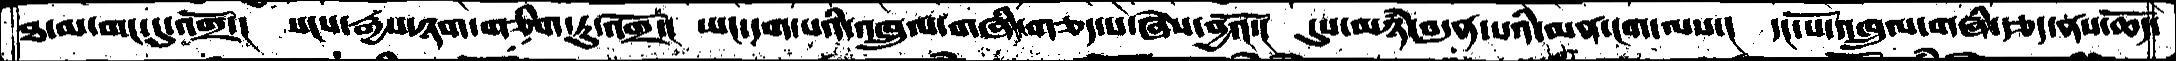ཐ་མ་གང་དུ་འགྲོ་།  སངས་རྒྱས་ཉག་གཅིག་ཏུ་འགྲོ་།  ཡང་དག་པའི་འཁྲུལ་གཞི་གཅད་པ་ཞེས་བྱའོ་།  དུས་མཉཾ་བདུན་པའི་མན་ངག་ལས་།   དང་པོ་འཁྲུལ་གཞི་རྩད་ནས་ཆོད་
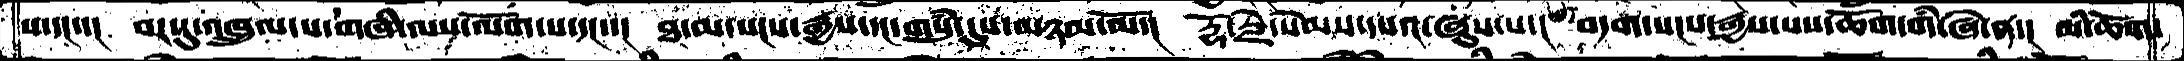པ་དང་་།  བར་དུ་འཁྲུལ་པ་གཞི་ལས་ལོག་པ་དང་་།  ཐ་མ་སངས་རྒྱས་དང་གསུཾ་དུས་མཉམ་མོ་།  རྡོ་རྗེ་སེམས་དཔའ་ཞུས་པ་།  བདག་སངས་རྒྱས་པས་ཆོག་གི་ཞེ་ན་།  མི་ཆོག་
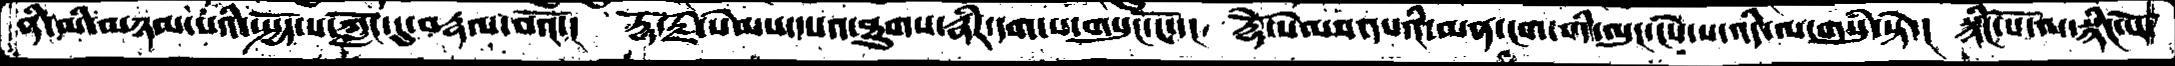ནི་མི་མཉམ་པའི་སྤྱོད་པ་ཀློང་དུ་བརྡལ་བའོ་།  རྡོ་རྗེ་སེམས་དཔའ་ཐུགས་རྣཾར་དག་པ་གསུང་ངོ་་།  རྡོེ་སེམས་དཔའི་མན་ངག་གི་ལུང་ངེས་པ་འདི་ལ་གསུཾ་སྟེ་།  སྙིང་པོ་ལསྙིང་པོ་
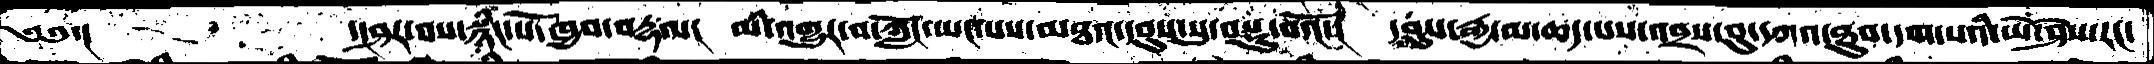༄༅་།        ་།ཤར་བས་སྙིང་པོ་ཁྱབ་བརྡལ།  མི་འགྱུར་བ་ཀློང་ཡང་པས་མཐའ་དབུས་སུ་བསྡུ་བའོ་།  དབུས་རྒྱ་མ་ཆད་པས་འབྲས་བུ་དཀའ་ཐུབ་དག་པའི་ཡེ་ཤེས་རང་
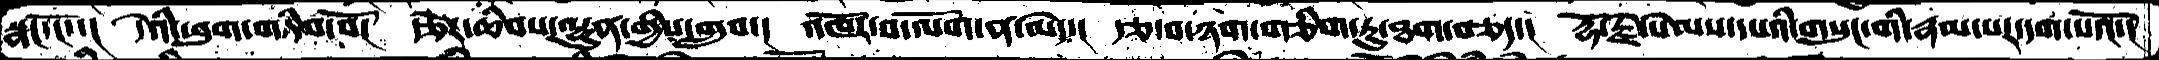སྣང་ངོ་།  དེའི་ཕུག་གཏིབ་བོ།  རྩེར་ཆིབས་ལྷུན་གྱིས་གྲུབ་།  འཁོར་བ་ལོག་ན་མེད་།  རྩ་བ་ཉག་གཅིག་ཏུ་ཐག་བཅད་།  རྡོ་རྗེ་སེམས་དཔའི་གསུང་གི་རྣམ་པར་དག་པའོ་།
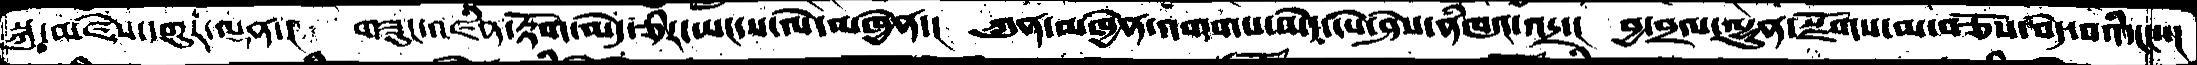སྐུ་མཛེས་དགུར་ལྡན་།  གཟུང་འཛིན་རྟོག་མེད་ཅིར་ཡང་ས་ལེ་མཁྱེན་།  ཀུན་མཁྱེན་འགགས་མེད་ངེས་ཤེས་ནཾཁའ་འདྲ་།  བྱ་བྲལ་ལྷུན་སྫོགས་མ་བཅོས་བདེ་བའི་ངང་་།
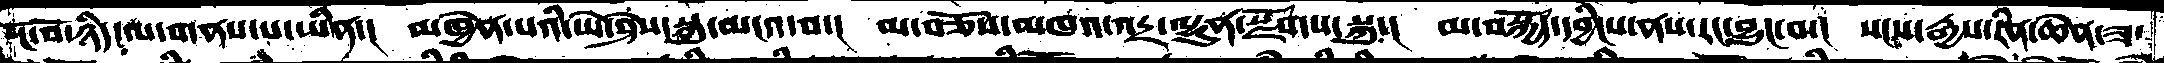ངོ་བོ་ཉིད་ལ་གནས་པ་ཡིན་།  མཁྱེན་པའི་ཡེ་ཤེས་སྐུ་མངའ་བ་།  མ་བཅོས་མཁའ་འདྲ་ལྷུན་སྫོགས་སྐུ་།  མ་བསྐྱོད་དབྱིངས་ནས་རང་བྱུང་བ་།  སངས་རྒྱས་རིན་ཆེན་ཟ་
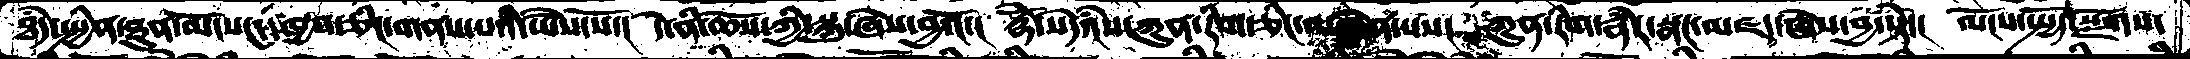ཐཾད་སྤྱིན་ཐུན་མོངས་དང་ཁྱབ་ཅིང་གནས་པའི་ཡཻས་སོ་།  དེ་ནི་ཆོས་ཀྱི་སྐུ་ཞེས་བྱའོ་།  རྡོཻ་སེདཾས་ཀུན་རིག་ཅིང་མཁྱེན་པས།  ཀུན་རིག་རྣཾར་སྣང་མཛད་ཞེས་བྱ་སྟེ་།  ལོངས་སྤྱོད་སྫོགས་
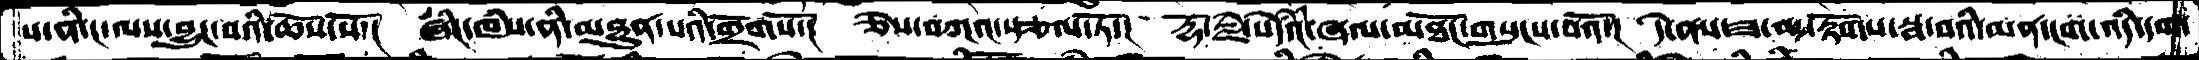པ་ནི་ང་ལས་བྱུང་བའི་ཆོས་སོ་།  ཞིང་ཁཾས་མཐུན་པའི་གྲོགསོ་།  ཅེས་བཀའ་སྩལ་ཏོ་།  རྡོ་རྗེ་སེཾདའ་ཞལ་མཐོང་གསུངས་བའོ་།  དེ་ནས་ཟ་མ་རྟོགས་སྦ་བའི་མན་ངག་འདི་དག་
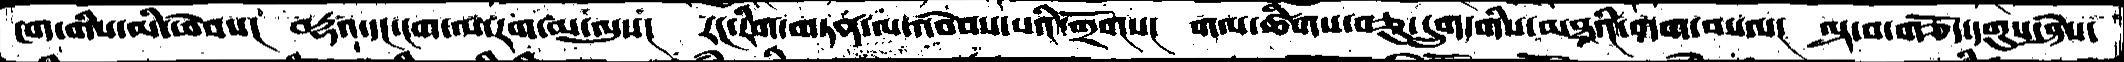ངག་གིས་མི་ཕེབས།  བརྡའ་དང་ངག་ལ་རག་མ་ལུས།  རང་རིག་གཏན་ལ་འབེབས་པའི་གྲོགས།  གལ་ཚིགས་བཅུ་དྲུག་གིས་མཐའི་བདག་བསལ།  ལྟ་བ་གཅོད་དགུས་ཤེས་
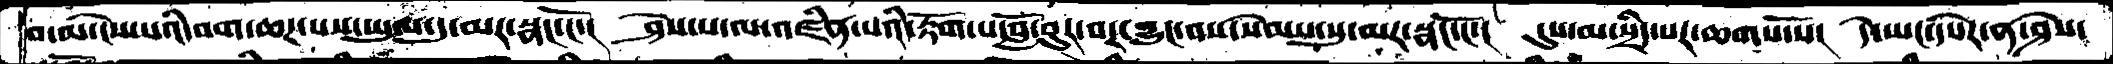བ་མ་ངེས་པའི་བག་ཆཌ་པས་ཡུལ་དུ་མར་སྣང་ངོ་།  ཤེས་པ་ལ་འཛིན་པའི་རྟོག་པ་བློ་བུར་བར་བྱུང་བས་སེམས་སུ་མར་སྣང་ངོ་།  དུས་མ་སྲིད་པར་ཆགས་སོ།  དེ་ཡང་དཔེར་ན་ཤེས་
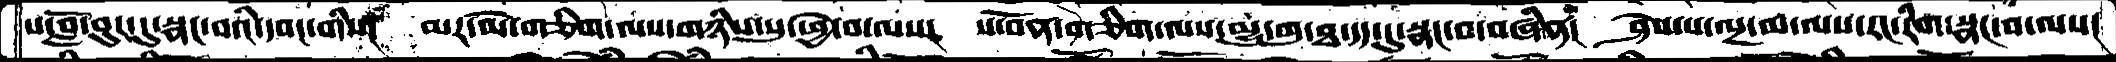པ་བློ་བུར་དུ་སྣང་བའི་དབང་གིས།  མར་མེ་གཅིག་ལས་གཉིས་སུ་ཕྱེ་བ་ལས།  ས་བོན་གཅིག་ལས་མྱུ་གུ་དད་དུ་སྣང་བ་བཞིན།  ཤེས་པ་ལྔ་མ་ལས་རང་རིག་སྣང་བ་ལས།
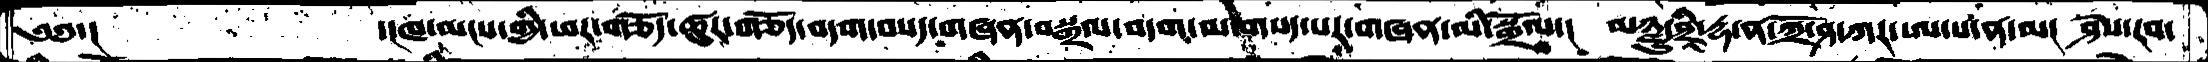༄༅་།  ་།ཁ་མངས་གྱི་ཕར་གཅོད་ཚུར་གཅོད་བདག་བསད་གཞན་བསྒྲལ་བདག་མ་གསད་པར་གཞན་མི་སྒྲོལ།  མཉྫུ་ཤྲཱཱི་དྷ་ན་ཀྲོ་ཤ་ཀར་ཨ་ས་ན་མ་།  ཤེས་རབ་
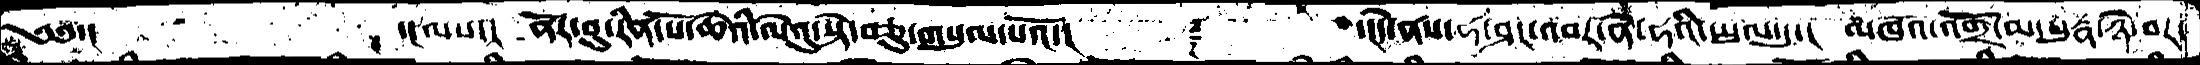༄༅་།       ་།ལས་།  ནོར་བུ་རིན་པོ་ཆེའི་ལེའུ་སྟེ་བཅུ་གསུམ་པའོ་།   ༈   ་།དེ་ནས་ཧ་ཤང་འབར་ནེ་ཧའི་ཡུལ་དུ་།  མཁའ་འགྲོ་མ་པུརྣ་ཉེ་བར་
